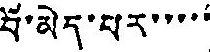པོ་མེད་པར་་་་་
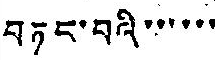བཏང་བའི་་་་་་
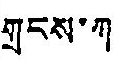གྲངས་ཀ
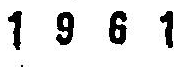1 9 6 1
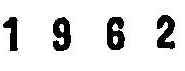1 9 6 2
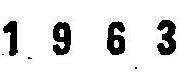1 9 6 3
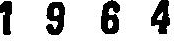1 9 6 4
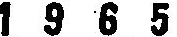1 9 6 5
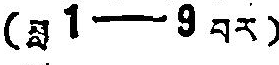(ཟླ 1—9 བར)
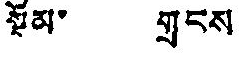སྡོམ་ གྲངས་
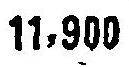11,900
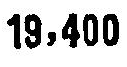19,400
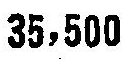35,500
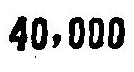40,000
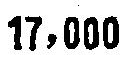17,000
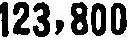123,800
